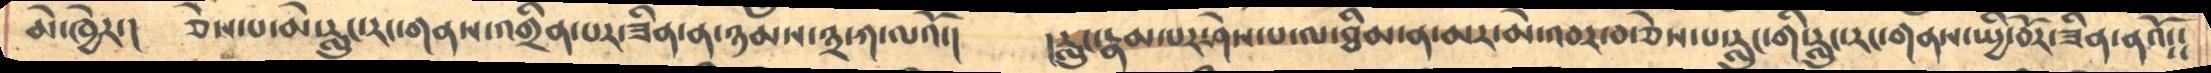མེ་ཁྱེར་།     ཅེས་པ་མེ་རླུང་རང་གནས་འགྲིན་པར་ཟིན་ན་ཉམས་༣་ཀ་ལའོ་།    །རླུང་རྣམ་པར་ཤེས་པ་ལ་ཐིམ་ན་མར་མེ་འབར་བ་ཅེས་པ་རླུང་གི་རླུང་རང་གནས་སྤྱི་བོར་ཟིན་ནའོ༴༴
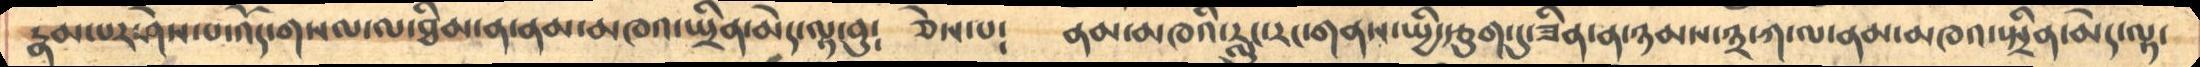རྣམ་པར་ཤེས་པ་འོད་གསལ་ལ་ཐིམ་ན་ནམ་མཁའ་སྤྲིན་མེད་ལྟ་བུ༴   ཅེས་པ༴   ནམ་མཁའི་རླུང་རང་གནས་སྤྱི་རྩུག་དུ་ཟིན་ན་ཉམས་༣་ཀ་ལ་ནམ་མཁའ་སྤྲིན་མེད་ལྟ་
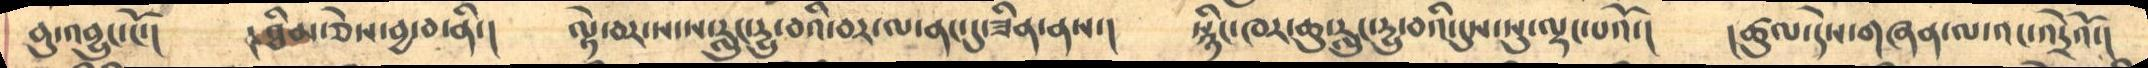བུ་འབྱུང་ངོ་།     །ཐིམ་ཅེས་བྱ་བ་ནི་།     ལྟེ་བར་ས་ས་རླུང་དྱུ་བའི་བར་ལ་ནང་དུ་ཟིན་ནས་།     སྙིང་ཁར་ཆུ་རླུང་དྱུ་བའི་དུས་སུ་ལྡང་པའོ་།   །ཚུལ་དེས་གཞན་ལ་འང་འདྲེའོ་།
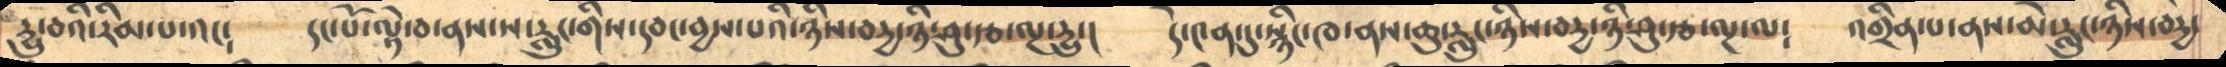དྱུ་བའི་རིམ་པ་འང༴    དང་པོ་ལྟེ་བ་ནས་ས་རླུང་གིས་དབང་བྱས་པའི་ཉིས་བདྱ་ཉི་ཤུ་རྩ་ལྔ་དྱུ་།    དེ་༤ན་དུ་སྙིང་ཁ་ནས་ཆུ་རླུང་ཉིས་བདྱ་ཉི་ཤུ་རྩ་ལྔ་ལ༴    འགྲིན་པ་ནས་མེ་རླུང་ཉིས་བདྱ་
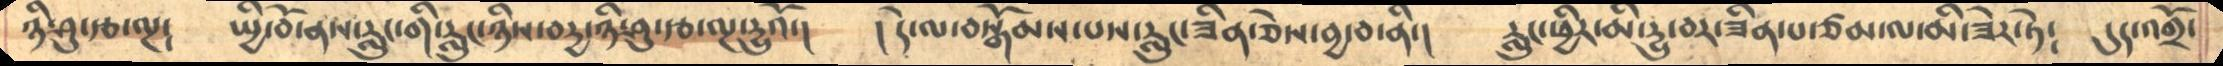ཉི་ཤུ་རྩ་ལྔ༴     སྤྱི་བོ་ནས་རླུང་གི་རླུང་ཉིས་བརྱ་ཉི་ཤུ་རྩ་ལྔ་དྱུའོ་།    ། དེ་ལ་བསྒོམས་པས་རླུང་ཟིན་ཅེས་བྱ་བ་ནི་།    རླུང་ཕྱིར་མི་དྱུ་བར་ཟིན་པ་ཙམ་ལ་མི་ཟེར་ཏེ༴   དུད་འགྲོ་
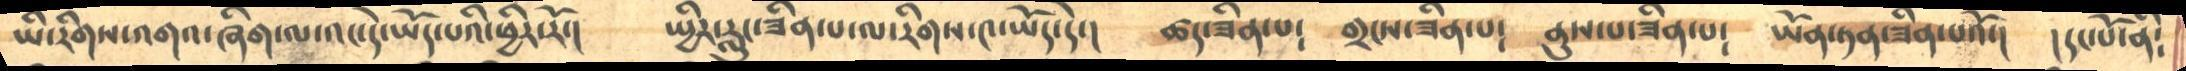ཡི་རིགས་འགའ་ཞིག་ལ་འང་དེ་ཡོད་པའི་ཕྱིར་རོ་།     སྤྱིར་རླུང་ཟིན་པ་ལ་རིགས་༤་ཡོད་དེ་།    ཚད་ཟིན་པ༴  གྲངས་ཟིན་པ༴   ནུས་པ་ཟིན་པ༴   ཡོན་ཏན་ཟིན་པའོ་།    །དང་པོ་ནི༴
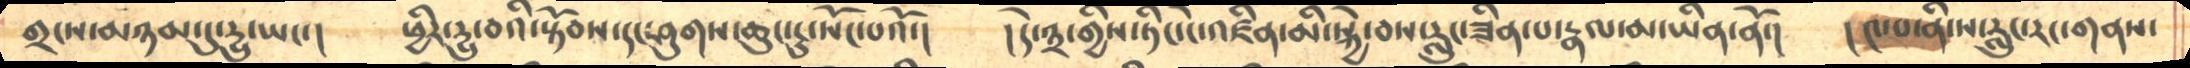གྲངས་མཉམ་དུ་དྱུ་ཡང་།      ཕྱི་དྱུ་བའི་སྟོབས་དང་ཤུགས་ཆུང་ངུ་སོང་པའོ་།   །དེ་༣་གྱིས་ཏིང་ངེ་འཛིན་མི་སྐྱེ་བས་རླུང་ཟིན་པ་རྣལ་མ་ཡིན་ནོ་།   ། ༤་པ་ནི་ས་རླུང་རང་གནས་
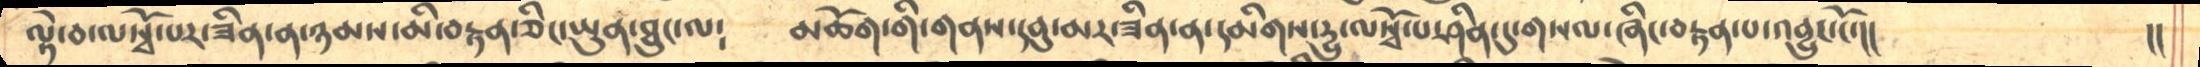ལྟེ་བ་ལསྭོ་པར་ཟིན་ན་ཉམས་མི་བརྟན་ཅིང་ཡུན་ཐུང་ལ༴   མཆོག་གི་གནས་དབུ་མར་ཟིན་ན་དམིགས་དྱུ་ལསྭོ་པ་ཤིན་དུ་གསལ་ཞིང་བརྟན་པ་འབྱུང་ངོ་།།          །།
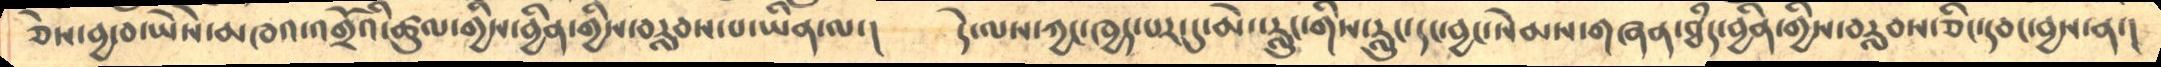ཅེས་བྱ་བ་ཡཻས་མཁའ་འགྲོའི་ཚུལ་གྱིས་བྱིན་གྱིས་བརླབས་པ་ཡིན་ལ་།     དེ་ལས་ཀྱང་ཁྱད་པར་དུ་མེ་རླུང་གིས་རླུང་དང་བྱང་སེམས་གཞན་ཐཾད་བྱིན་གྱིས་བརླབས་ཅིང་དབང་བྱས་ན་།
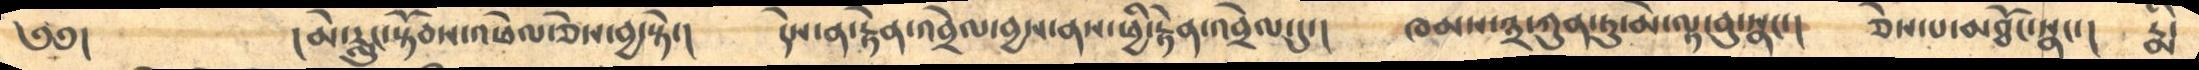༄༅།             །མེ་རླུང་སྟོབས་འཕེལ་ཅེས་བྱ་སྟེ་།      དེས་ན་རྟེན་འབྲེལ་བྱས་ནས་ཕྱི་རྟེན་འབྲེལ་དུ་།    ཁམས་༣་ཀུན་ཏུ་མེ་ལྟ་བུ་སྣང་།     ཅེས་པ་མཐོང་སྣང་།   རྨི་
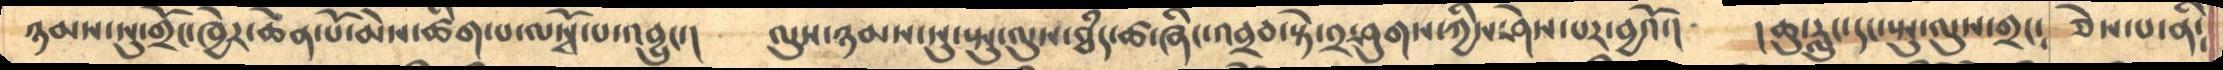ཉམས་སུ་གྲོང་ཁྱེར་ཆེན་པོ་མེས་ཚིག་པ་ལསྭོ་པ་འབྱུང་།     ལུས་ཉམས་སུ་སྤུ་ལུས་ཐཾད་ཚ་ཞིང་འབྲབ་སྟེ་༢་ཤུགས་ཀྱིས་ཤེས་པར་བྱའོ་།     །ཆུ་རླུང་དང་སྤུ་ལུས་གྲང༴  ཅེས་པ་ནི༴
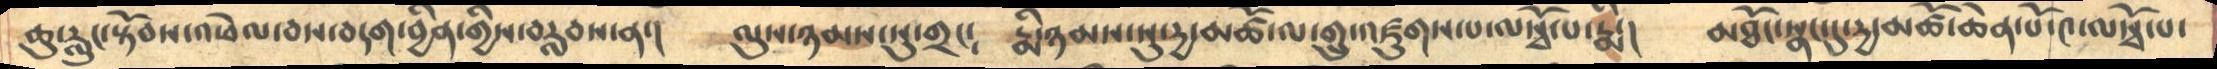ཆུ་རླུང་སྟོབས་འཕེལ་བས་བདག་བྱིན་གྱིས་བརླབས་ན་།     ལུས་ཉམས་སུ་གྲང༴    རྨི་ཉམས་སུ་དྱ་མཚོ་ལ་གྲུ་འཛུགས་པ་ལསྭོ་པ་རྨི་།   མཐོང་སྣང་དུ་དྱ་མཚོ་ཆེན་པོ་༤་ལསྭོ་པ་
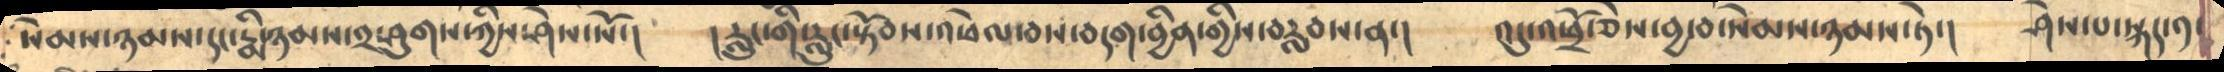སེམས་ཉམས་དང་རྨི་ཉམས་༢་ཤུགས་ཀྱིས་ཤེས་སོ་།    །རླུང་གི་རླུང་སྟོབས་འཕེལ་བས་བདག་བྱིན་གྱིས་བརླབས་ན་།    འདུ་འཕྲོ་ཅེས་བྱ་བ་སེམས་ཉམས་ཏེ་།    ཤེས་པ་སྐད་༡་
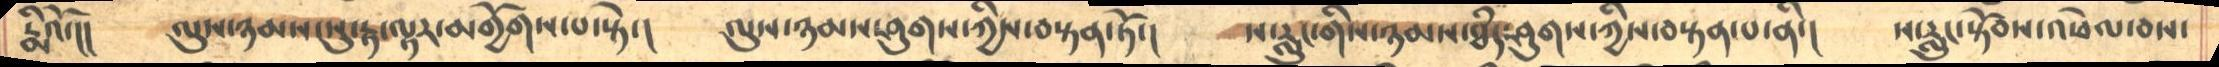རྨིའོ་།།       ལུས་ཉམས་སུ་རྟ་ལྟར་མགྱོགས་པ་སྟེ་།     ལུས་ཉམས་ཤུགས་ཀྱིས་བསྟན་ཏོ་།    ས་རླུང་གིས་ཉམས་ཐཾད་ཤུགས་ཀྱིས་བསྟན་པ་ནི་།    ས་རླུང་སྟོབས་འཕེལ་བས་
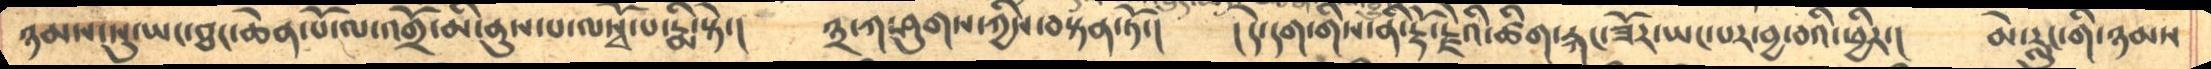ཉམས་སུ་ཡང་ཐང་ཆེན་པོ་ལ་འགྲོ་མི་ནུས་པ་ལསྭོ་པ་རྨི་སྟེ་།   ༣་ཀ་ཤུགས་ཀྱིས་བསྟན་ཏོ་།     །དེ་དག་གིས་ནི་རྡོ་རྗེའི་ཚིག་རྐང་ཟོར་ཡང་པར་བྱ་བའི་ཕྱིར་།    མེ་རླུང་གི་ཉམས
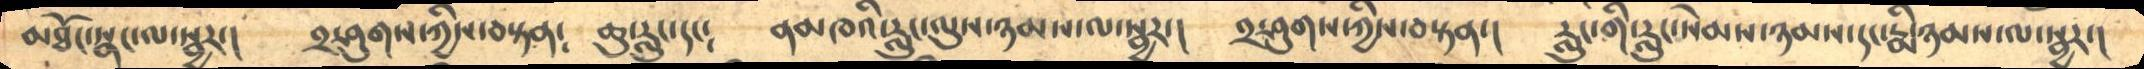མཐོང་སྣང་ལ་སྦྱར་།    ༢་ཤུགས་ཀྱིས་བསྟན༴    ཆུ་རླུང་དང༴    ནམཁའི་རླུང་ལུས་ཉམས་ལ་སྦྱར་།    ༢་ཤུགས་ཀྱིས་བསྟན་།     རླུང་གི་རླུང་སེམས་ཉམས་དང་རྨི་ཉམས་ལ་སྦྱར་།
